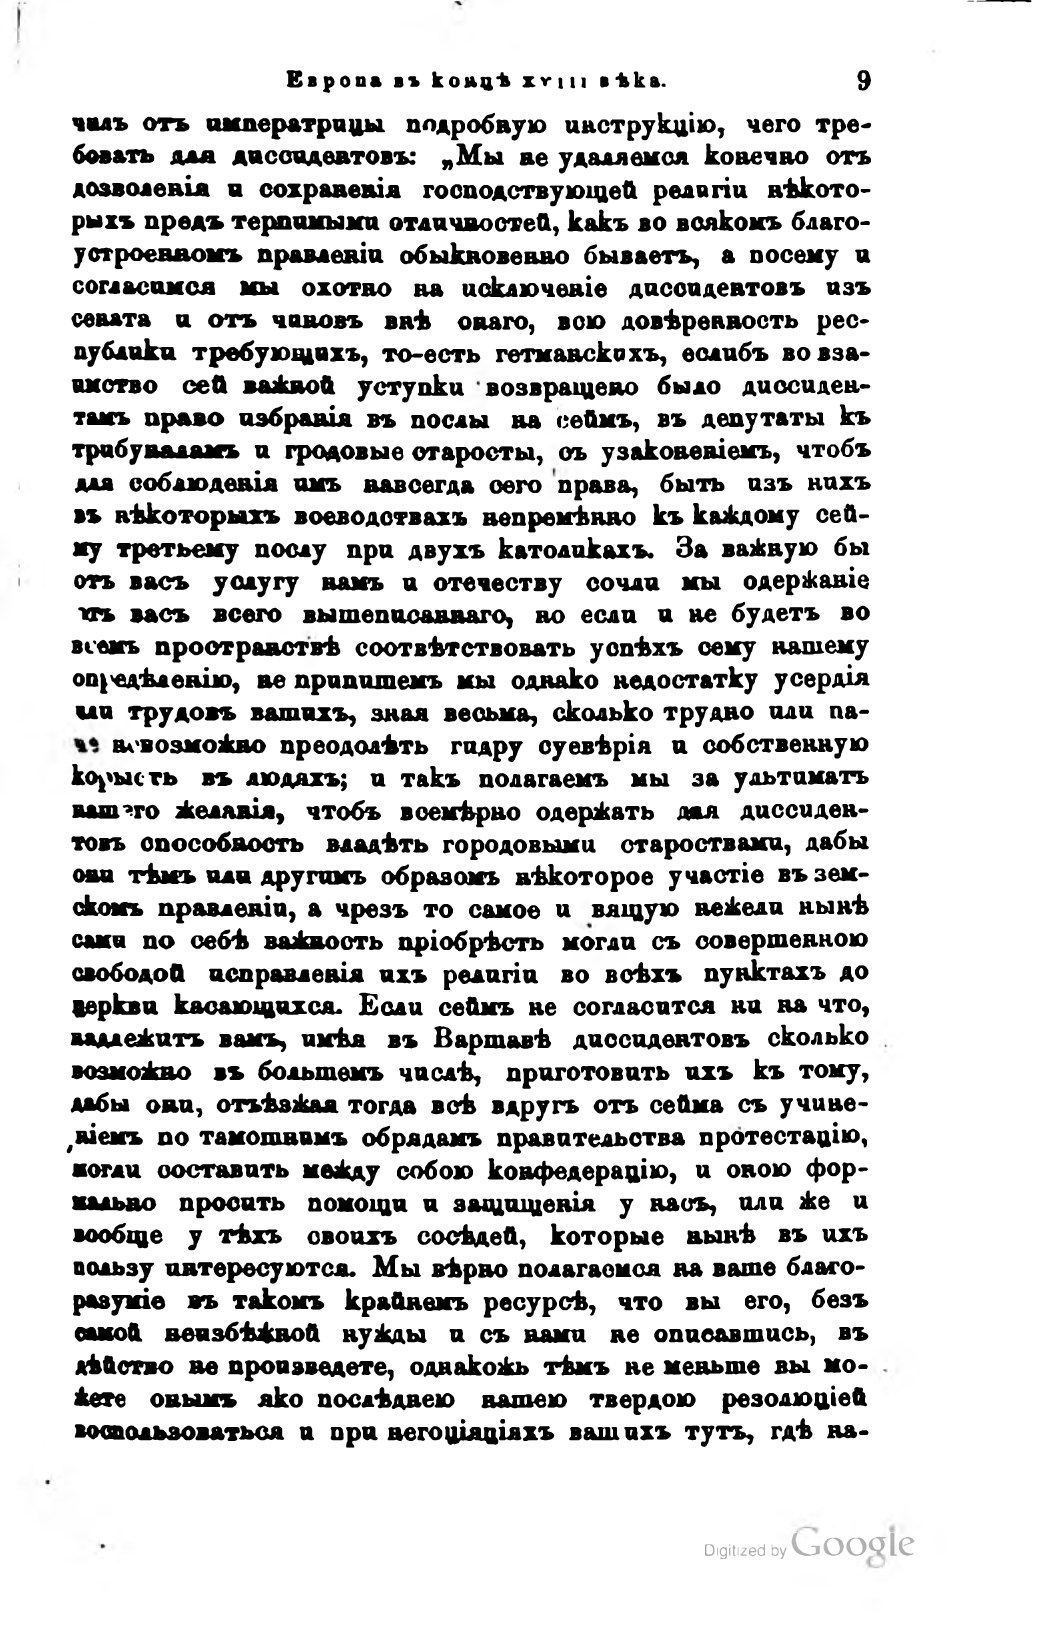Европа въ концѣ XVIII вѣка.                 9
чилъ отъ императрицы подробную инструкцію, чего требовать дал диссидентовъ: „Мы не удаляемся конечно отъ дозволенія и сохраненія господствующей религіи нѣкоторыхъ предъ терпимыми отличностей, какъ во всякомъ благоустроенномъ правленіи обыкновенно бываетъ, а посему и согласимся мы охотно на исключеніе диссидентовъ изъ сената и отъ чиновъ внѣ онаго, всю довѣренность республики требующихъ, то-есть гетманскихъ, еслибъ вовзаимство сей важной уступки возвращено было диссидентамъ право избранія въ послы на сеймъ, въ депутаты къ трибуналамъ и гродовые старосты, съ узаконеніемъ, чтобъ для соблюденія имъ навсегда сего права, быть изъ нихъ въ нѣкоторыхъ воеводствахъ непремѣнно къ каждому сейму третьему послу при двухъ католикахъ. За важную бы отъ васъ услугу намъ и отечеству сочли мы одержаніе отъ васъ всего вышеписаннаго, но если и не будетъ во всемъ пространствѣ соотвѣтствовать успѣхъ сему нашему опредѣленію, не припишемъ мы однако недостатку усердія или трудовъ вашихъ, зная весьма, сколько трудно или паче невозможно преодолѣть гидру суевѣрія и собственную корысть въ людяхъ; и такъ полагаемъ мы за ультиматъ вашего желанія, чтобъ всемѣрно одержать для диссидентовъ способность владѣть городовыми старостами, дабы они тѣмъ или другимъ образомъ нѣкоторое участіе въ земскомъ правленіи, а чрезъ то самое и вящую нежели нынѣ сами по себѣ важность пріобрѣсть могли съ совершенною свободой исправленія ихъ религіи во всѣхъ пунктахъ до церкви касающихся. Если сеймъ не согласится ни на что, надлежитъ вамъ, имѣя въ Варшавѣ диссидентовъ сколько возможно въ большемъ числѣ, приготовить ихъ къ тому, дабы они, отъѣзжая тогда всѣ вдругъ отъ сейма съ учиненіемъ по тамошнимъ обрядамъ правительства протестацію, могли составить между собою конфедерацію, и оною формально просить помощи и защищенія у насъ, или же и вообще у тѣхъ своихъ сосѣдей, которые нынѣ въ ихъ пользу интересуются. Мы вѣрно полагаемся на ваше благоразуміе въ такомъ крайнемъ ресурсѣ, что вы его, безъ самой неизбѣжной нужды и съ нами не описавшись, въ дѣйство не произведете, однакожъ тѣмъ не меньше вы можете онымъ яко послѣднею вашею твердою резолюціей воспользоваться и при негоціаціяхъ вашихъ тутъ, гдѣ на-
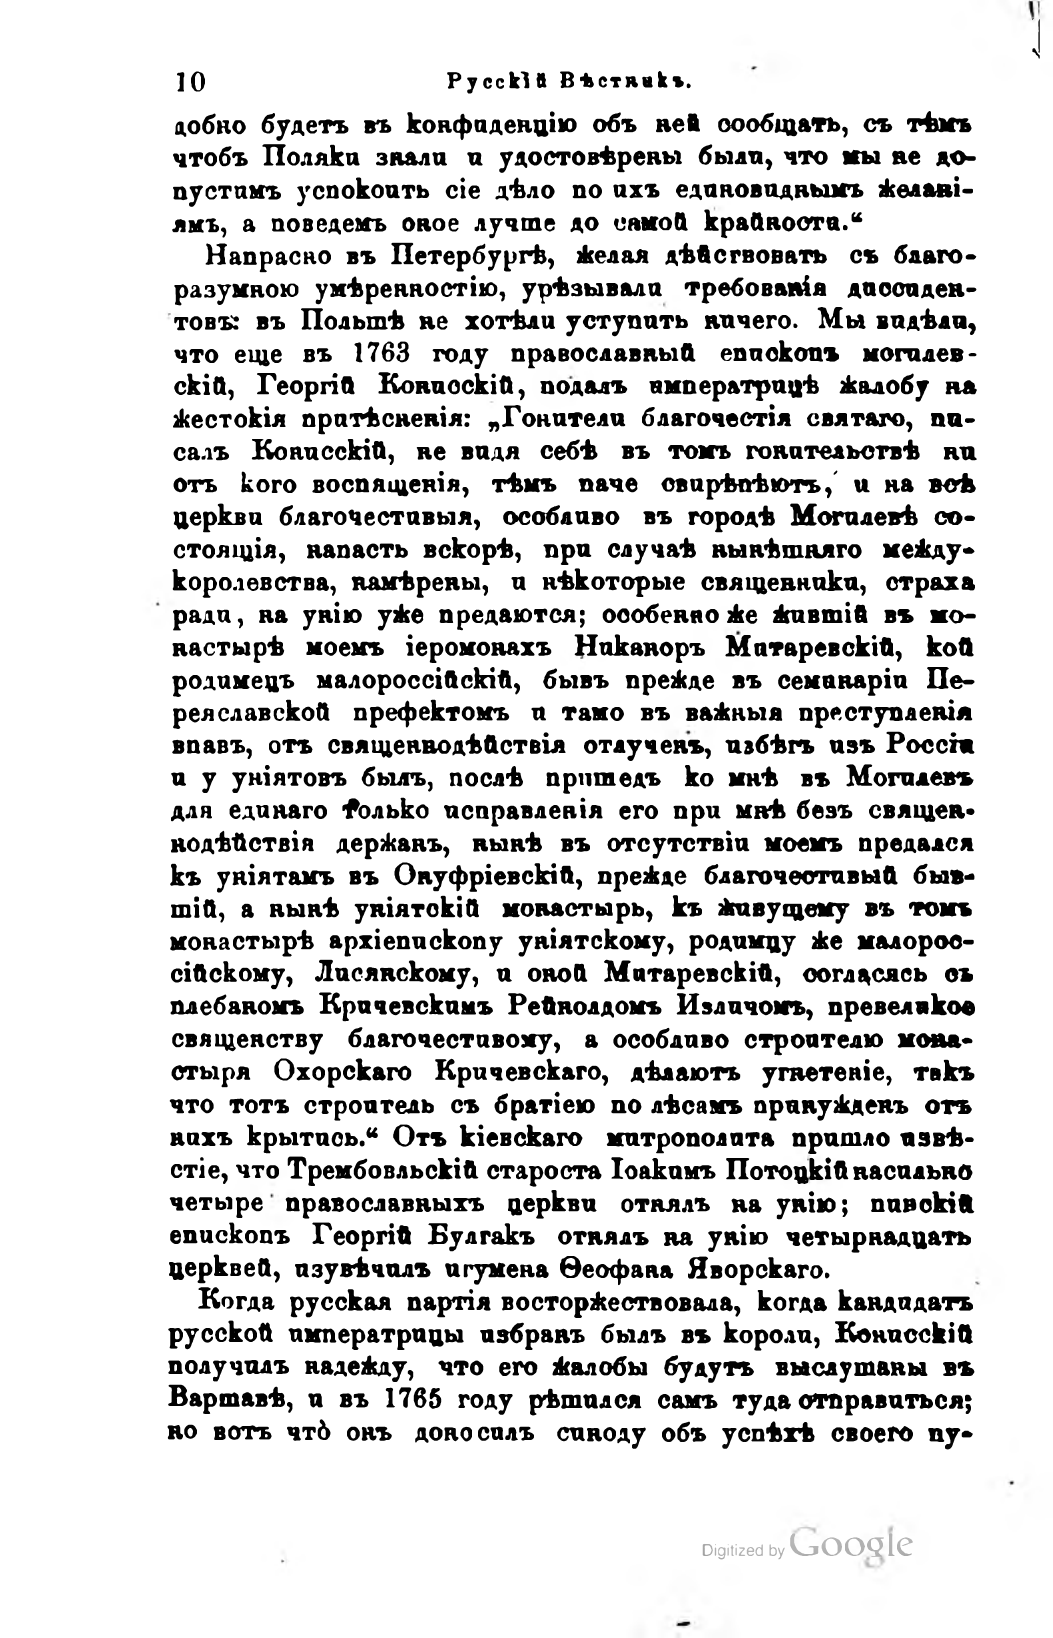10                 Русскій Вѣстникъ.
добно будетъ въ конфиденцію объ ней сообщать, съ тѣмъ чтобъ Поляки знали и удостовѣрены были, что мы не допустимъ успокоить сіе дѣло по ихъ единовиднымъ желаніямъ, а поведемъ оное лучше до самой крайности.“
Напрасно въ Петербургѣ, желая дѣйствовать съ благоразумною умѣренностію, урѣзывали требованія диссидентовъ: въ Польшѣ не хотѣли уступить ничего. Мы видѣли, что еще въ 1763 году православный епископъ могилевскій, Георгій Конисскій, подалъ императрицѣ жалобу на жестокія притѣсненія: „Гонители благочестія святаго, писалъ Конисскій, не видя себѣ въ томъ гонительствѣ ни отъ кого воспященія, тѣмъ паче свирѣпѣютъ и на всѣ церкви благочестивыя, особливо въ городѣ Могилевѣ состоящія, напасть вскорѣ, при случаѣ нынѣшняго междукоролевства, намѣрены, и нѣкоторые священники, страха ради, на унію уже предаются; особенно же жившій въ монастырѣ моемъ іеромонахъ Никаноръ Митаревскій, кой родимецъ малороссійскій, бывъ прежде въ семинаріи Переяславской префектомъ и тамо въ важныя преступленія впавъ, отъ священнодѣйствія отлученъ, избѣгъ изъ Россіи и у уніятовъ былъ, послѣ пришелъ ко мнѣ въ Могилевъ для единаго только исправленія его при мнѣ безъ священнодѣйствія держанъ, нынѣ въ отсутствіи моемъ предался къ уніятамъ въ Онуфріевскій, прежде благочестивый бывшій, а нынѣ уніятскій монастырь, къ живущему въ томъ монастырѣ архіепископу уніятскому, родимцу же малороссійскому, Лисянскому, и оной Митаревскій, согласясь съ плебаномъ Кричевскимъ Рейнолдомъ Изличомъ, превеликое священству благочестивому, а особливо строителю монастыря Охорскаго Кричевскаго, дѣлаютъ угнетеніе, такъ что тотъ строитель съ братіею по лѣсамъ принужденъ отъ нихъ крытись“. Отъ кіевскаго митрополита пришло извѣстіе, что Трембовльскій староста Іоакимъ Потоцкій насильно четыре православныхъ церкви отнялъ на унію; пинскій епископъ Георгій Булгакъ отнялъ на унію четырнадцать церквей, изувѣчилъ игумена Ѳеофана Яворскаго.
Когда русская партія восторжествовала, когда кандидатъ русской императрицы избранъ былъ въ короли, Конисскій получилъ надежду, что его жалобы будутъ выслушаны въ Варшавѣ, и въ 1765 году рѣшился самъ туда отправиться; но вотъ что онъ доносилъ синоду объ успѣхѣ своего пу-
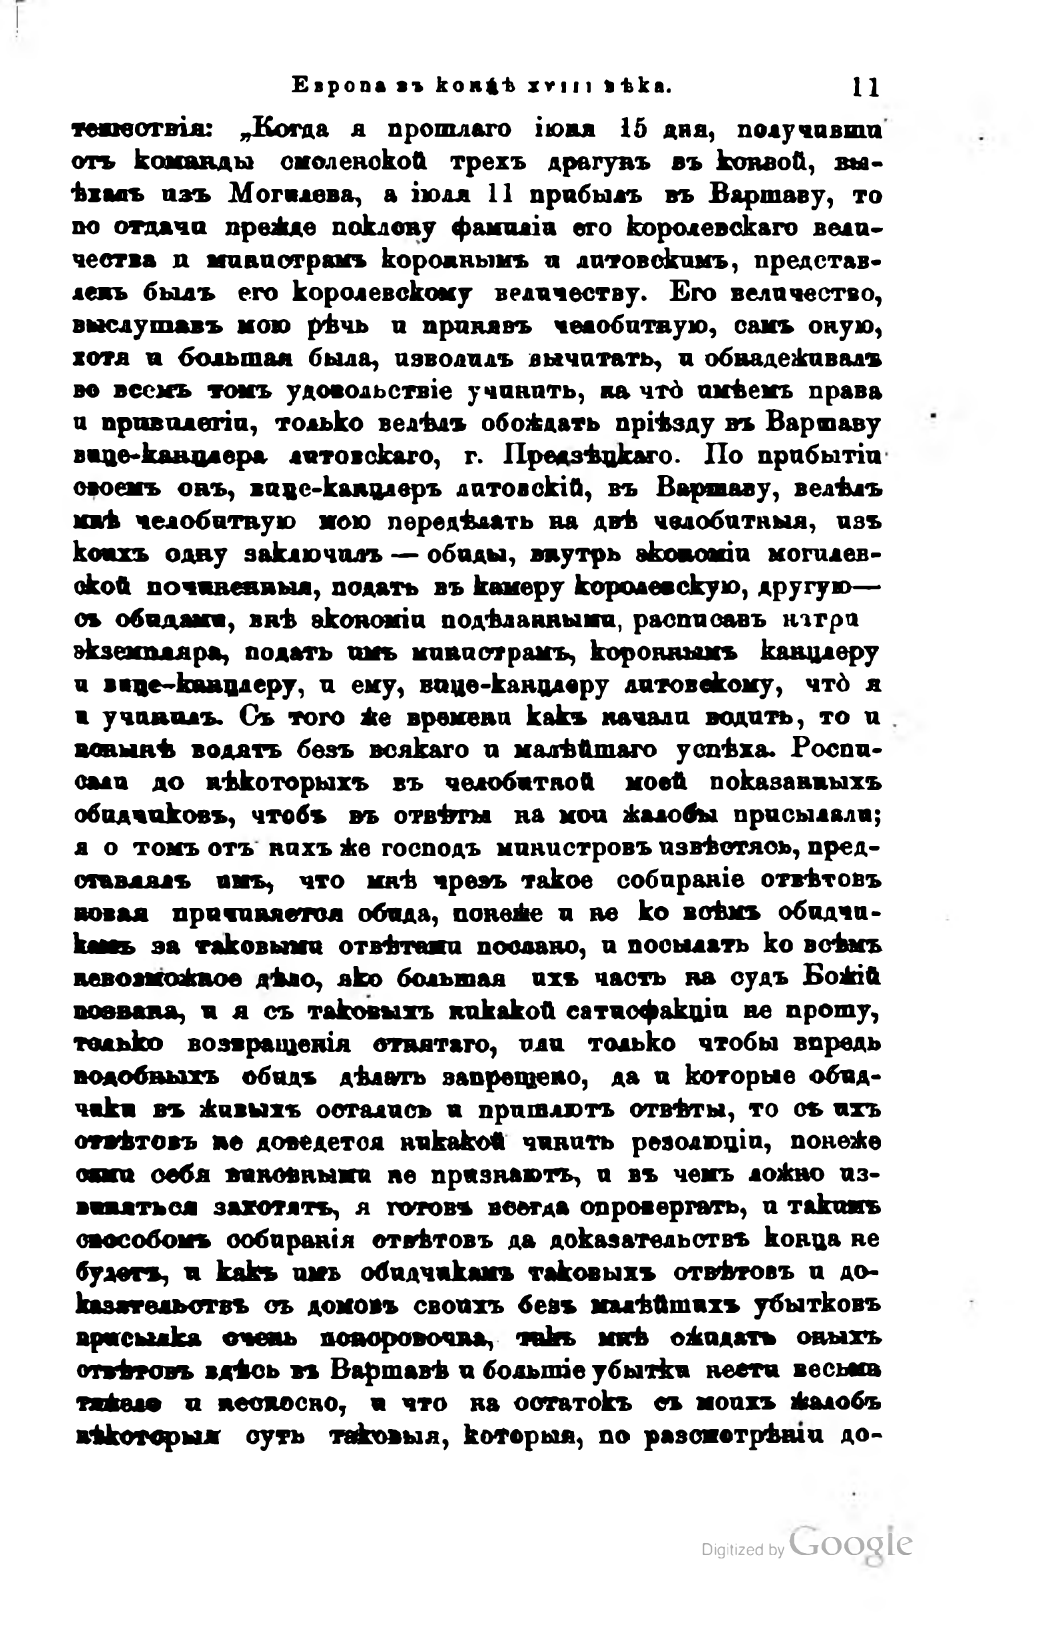Европа въ концѣ XVIII вѣка.                  11
тешествія: „Когда я прошлаго іюня 15 дня, получавши отъ команды смоленокой трехъ драгунъ въ конвой, выѣхалъ изъ Могилева, а іюля 11 прибылъ въ Варшаву, то по отдачи прежде поклону фамиліи его королевскаго величества и министрамъ короннымъ и литовскимъ, представленъ былъ его королевскому величеству. Его величество, выслушавъ мою рѣчь и принявъ челобитную, самъ оную, хотя и большая была, изволилъ вычитать, и обнадеживалъ во всемъ томъ удовольствіе учинить, на что имѣемъ права и привилегіи, только велѣлъ обождать пріѣзду въ Варшаву вице-канцлера литовскаго, г. Предзѣцкаго. По прибытіи своемъ онъ, вице-канцлеръ литовскій, въ Варшаву, велѣлъ мнѣ челобитную мою передѣлать на двѣ челобитныя, изъ коихъ одну заключилъ — обиды, внутрь экономіи могилевской починенныя, подать въ камеру королевскую, другую — съ обидами, внѣ экономіи подѣланными, расписавъ натри экземпляра, подать имъ министрамъ, короннымъ канцлеру и вице-канцлеру, и ему, вице-канцлеру литовскому, что я и учинилъ. Съ того же времени какъ начали водить, то и понынѣ водятъ безъ всякаго и малѣйшаго успѣха. Росписали до нѣкоторыхъ въ челобитной моей показанныхъ обидчиковъ, чтобъ въ отвѣты на мои жалобы присылали; я о томъ отъ нихъ же господъ министровъ извѣстясь, представлялъ имъ, что мнѣ чрезъ такое собираніе отвѣтовъ новая причиняется обида, понеже и не ко всѣмъ обидчикамъ за таковыми отвѣтами послано, и посылать ко всѣмъ невозможное дѣло, яко большая ихъ часть на судъ Божій позвана, и я съ таковыхъ никакой сатисфакціи не прошу, только возвращенія отнятаго, или только чтобы впредь подобныхъ обидъ дѣлать запрещено, да и которые обидчики въ живыхъ остались и пришлютъ отвѣты, то съ ихъ отвѣтовъ не доведется никакой чинить резолюціи, понеже сами себя виновными не признаютъ, и въ чемъ ложно извиняться захотятъ, я готовъ всегда опровергать, и такимъ способомъ собиранія отвѣтовъ да доказательствъ конца не будетъ, и какъ имъ обидчикамъ таковыхъ отвѣтовъ и доказательствъ съ домовъ своихъ безъ малѣйшихъ убытковъ присылка очень поноровочна, такъ мнѣ ожидать оныхъ отвѣтовъ здѣсь въ Варшавѣ и большіе убытки нести весьма тяжело и несносно, и что на остатокъ съ моихъ жалобъ нѣкоторыя суть таковыя, которыя, по разсмотрѣніи до-
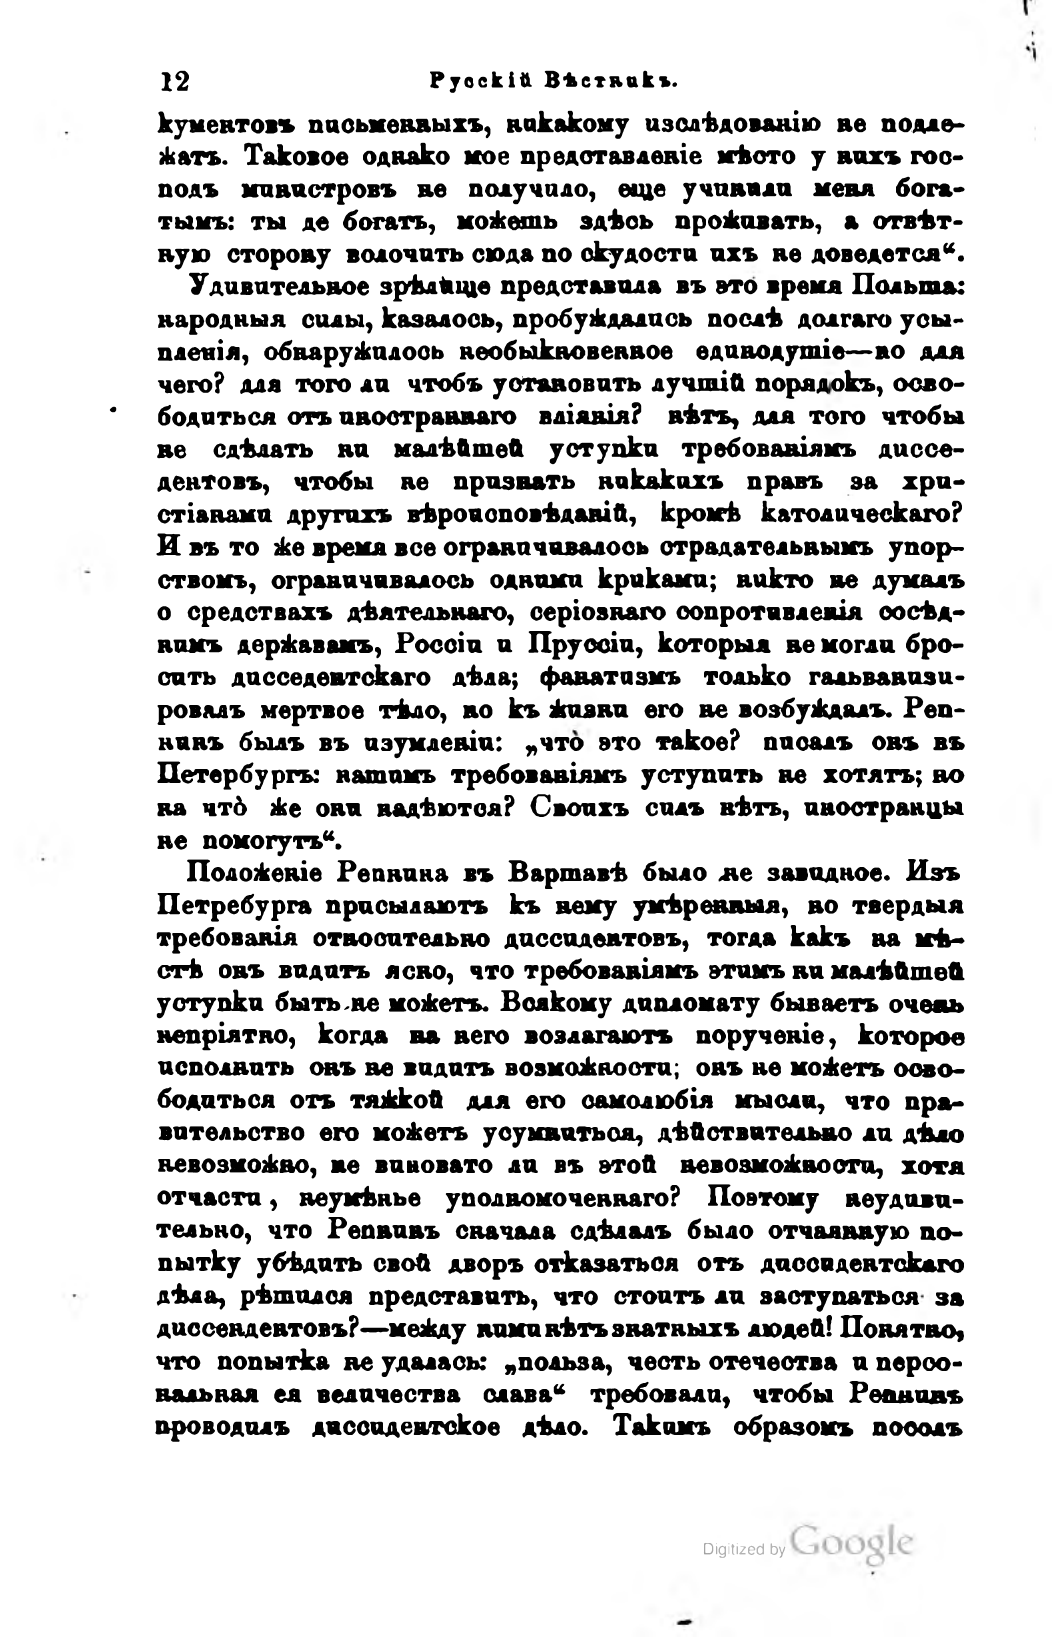12                  Русскій Вѣстникъ.
кументовъ письменныхъ, никакому изслѣдованію не подлежатъ. Таковое однако мое представленіе мѣсто у нихъ господъ министровъ не получило, еще учинили меня богатымъ: ты де богатъ, можешь здѣсь проживать, а отвѣтную сторону волочить сюда по скудости ихъ не доведется“.
Удивительное зрѣлище представила въ это время Польша: народныя силы, казалось, пробуждались послѣ долгаго усыпленія, обнаружилось необыкновенное единодушіе — но для чего? для того ли чтобъ установить лучшій порядокъ, освободиться отъ иностраннаго вліянія? нѣтъ, для того чтобы не сдѣлать ни малѣйшей уступки требованіямъ дисседентовъ, чтобы не признать никакихъ правъ за христіанами другихъ вѣроисповѣданій, кромѣ католическаго? И въ то же время все ограничивалось страдательнымъ упорствомъ, ограничивалось одними криками; никто не думалъ о средствахъ дѣятельнаго, серіознаго сопротивленія сосѣднимъ державамь, Россіи и Пруссіи, которыя не могли бросить дисседентскаго дѣла; фанатизмъ только гальванизировалъ мертвое тѣло, но къ жизни его не возбуждалъ. Репнинъ былъ въ изумленіи: „что это такое? писалъ онъ въ Петербургъ: нашимъ требованіямъ уступить не хотятъ; но на что же они надѣются? Своихъ силъ нѣтъ, иностранцы не помогутъ“.
Положеніе Репнина въ Варшавѣ было не завидное. Изъ Петребурга присылаютъ къ нему умѣренныя, но твердыя требованія относительно диссидентовъ, тогда какъ на мѣстѣ онъ видитъ ясно, что требованіямъ этимъ ни малѣйшей уступки быть не можетъ. Всякому дипломату бываетъ очень непріятно, когда на него возлагаютъ порученіе, которое исполнить онъ не видитъ возможности; онъ не можетъ освободиться отъ тяжкой для его самолюбія мысли, что правительство его можетъ усумниться, дѣйствительно ли дѣло невозможно, не виновато ли въ этой невозможности, хотя отчасти, неумѣнье уполномоченнаго? Поэтому неудивительно, что Репнинъ сначала сдѣлалъ было отчаянную попытку убѣдить свой дворъ отказаться отъ диссидентскаго дѣла, рѣшился представить, что стоитъ ли заступаться за диссендентовъ? — между ними нѣтъ знатныхъ людей! Понятно, что попытка не удалась: „польза, честь отечества и персональная ея величества слава“ требовали, чтобы Репнинъ проводилъ диссидентское дѣло. Такимъ образомъ посолъ